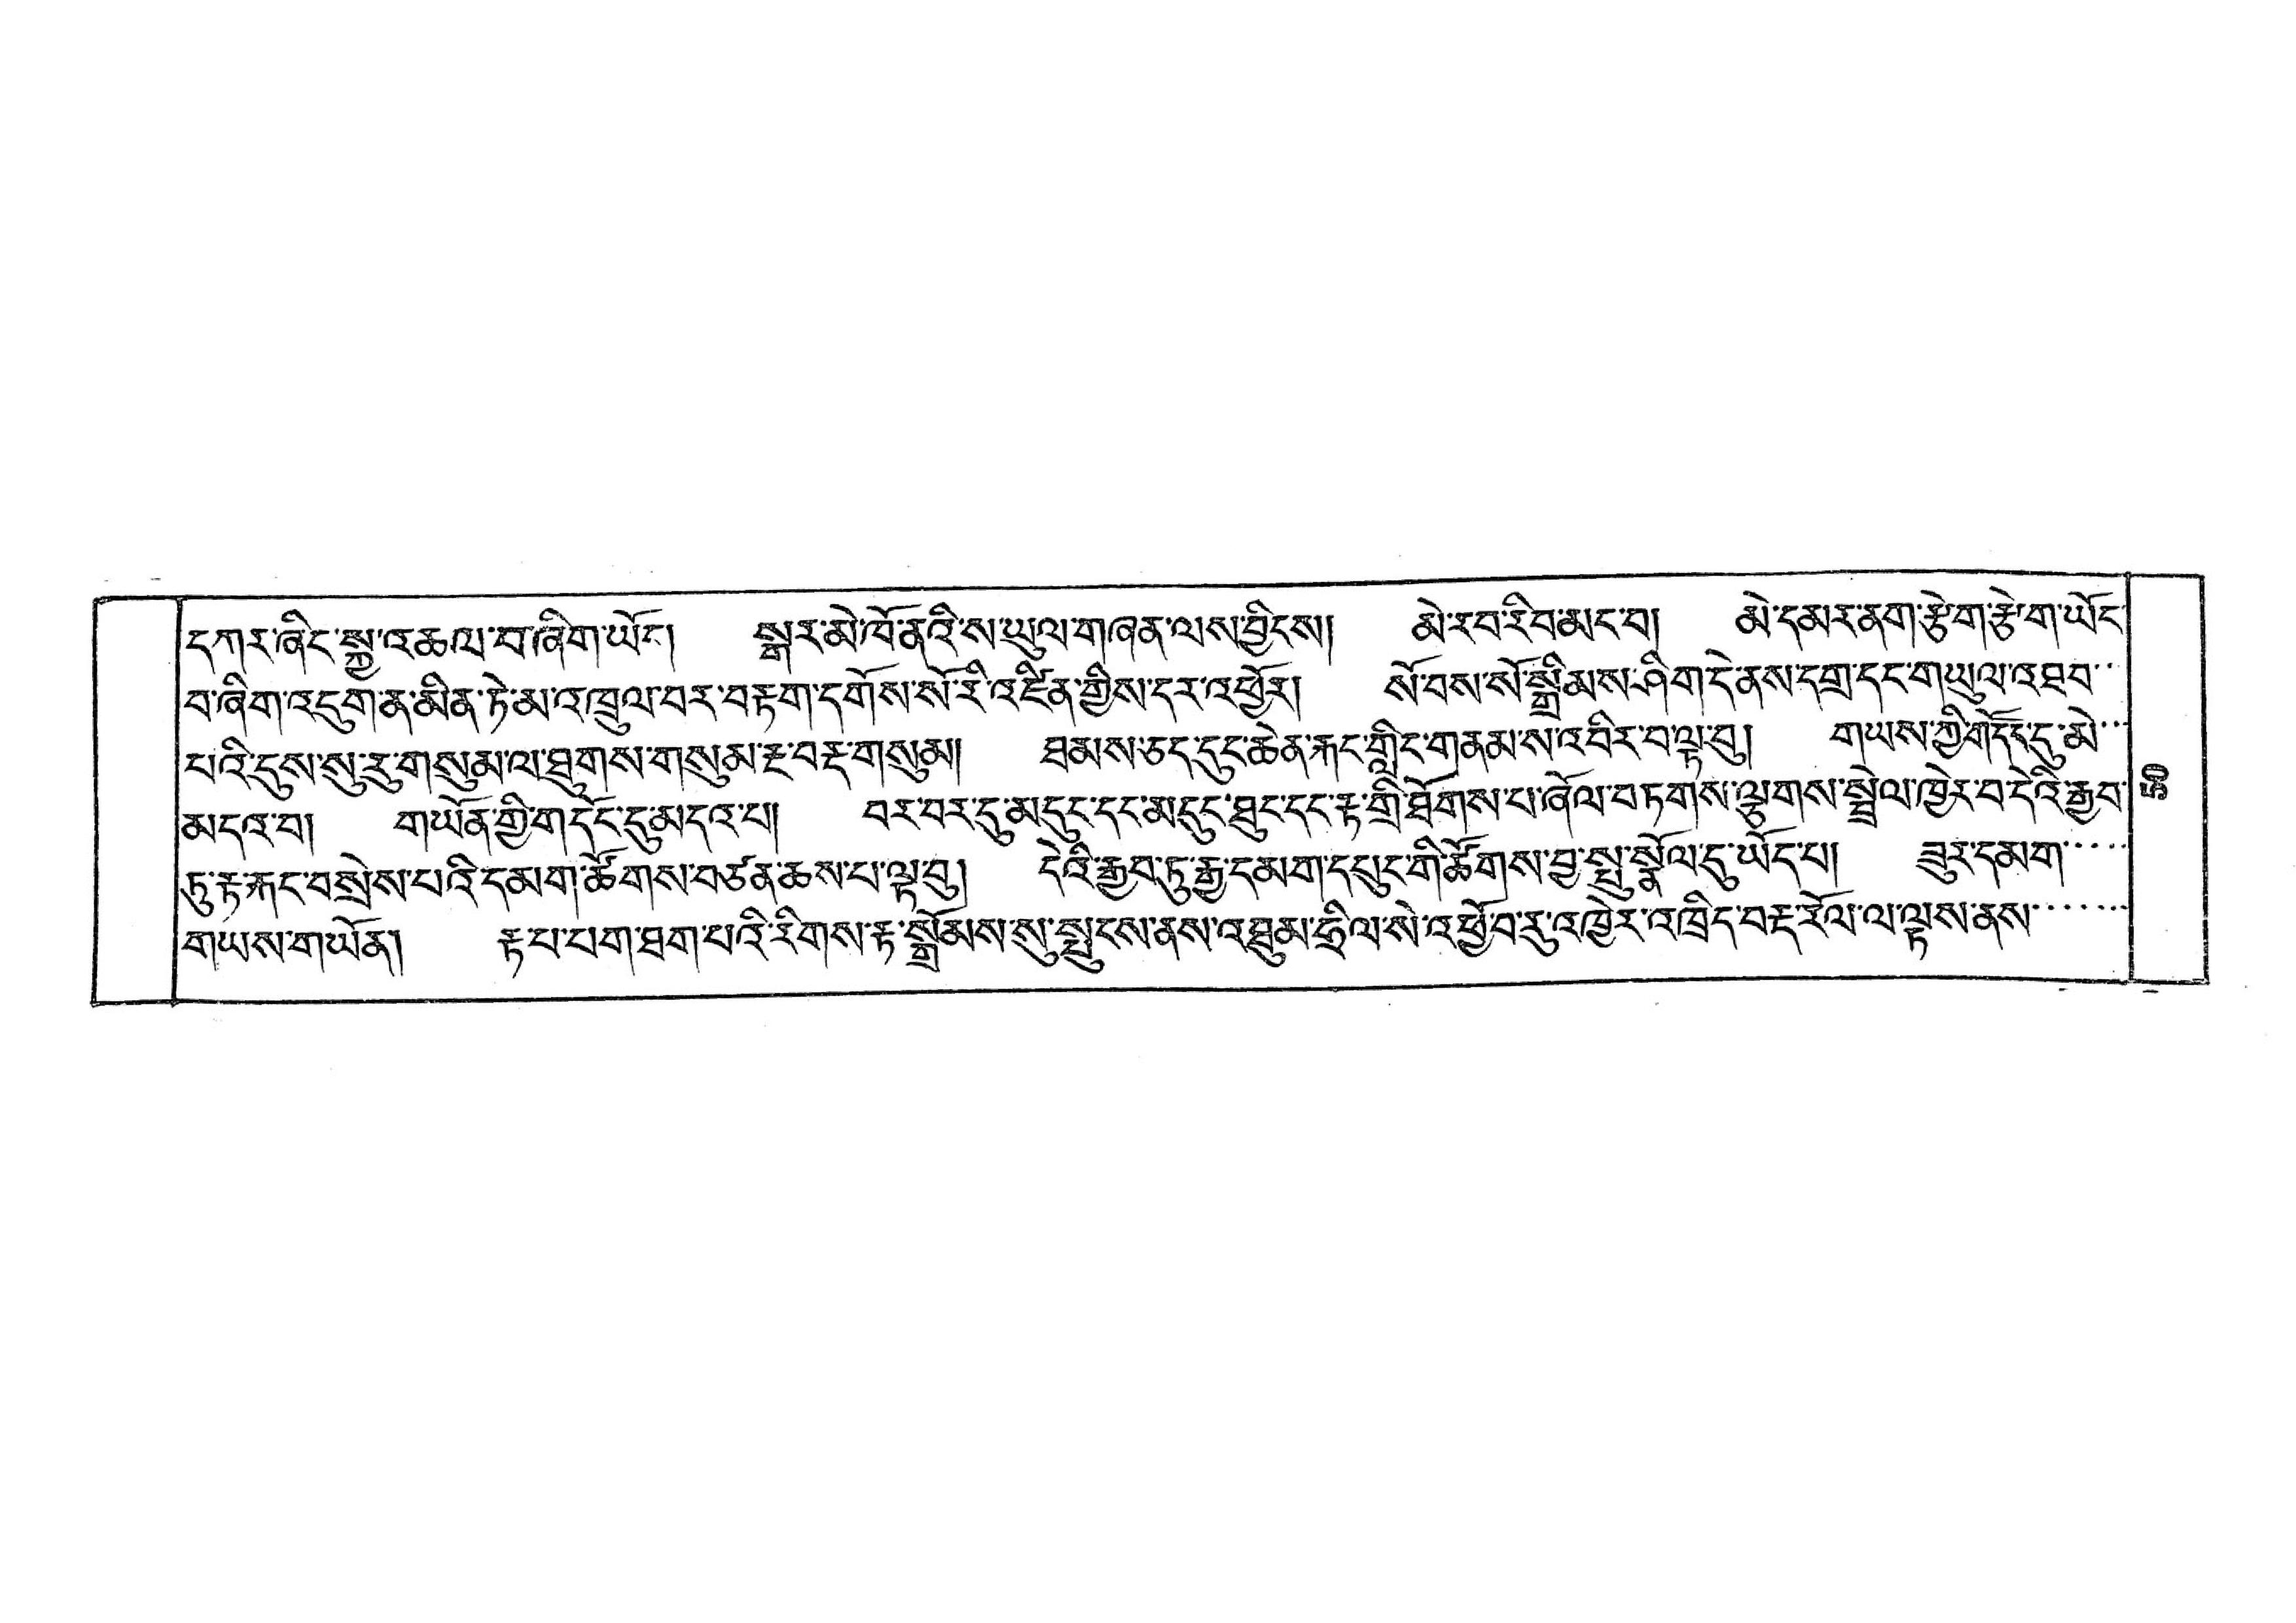དཀར་ཞིང་སྐྱུ་འཆལ་བ་ཞིག་ཡོད། སྒར་མེ་ཁོ་ནའི་ས་ཡུལ་གཞན་ལས་བྱིངས། མེ་རབ་རིབ་མང་བ། མེ་དམར་ནག་རྩེག་རྩེག་ཡོང་
བ་ཞིག་འདུག་ན་མིན་ཏེ་མ་འཁྲུལ་བར་བརྟག་དགོས་སོ་རི་འཛིན་གྱིས་དར་འཕྱོར། སེ་བས་སོ་སྒྲིམས་ཤིག་དེ་ནས་དགྲ་དང་གཡུལ་འཐབ་་་
པའི་དུས་སུ་རུ་གསུམ་ལ་ཐུགས་གསུམ་རྔ་བརྡ་གསུམ། ཐམས་ཅད་དུང་ཆེན་རྐང་གླིང་གནམ་ས་འབིར་བ་ལྟ་བུ། གཡས་ཀྱི་གདོང་དུ་མེ་་་
མདའ་བ། གཡོན་གྱི་གདོང་དུ་མདའ་པ། བར་བར་དུ་མདུང་དང་མདུང་ཐུང་དང་རྟ་གྲི་ཐོགས་པ་ཞོལ་བཏགས་ལྕགས་སྦྲེལ་ཁྱེར་བ་དེའི་རྒྱབ་
ཏུ་རྟ་རྐད་བསྲེས་པའི་དམག་ཚོགས་བཙན་ཆས་པ་ལྟ་བུ། དེའི་རྒྱབ་ཏུ་རྒྱ་དམག་དཔུང་གི་ཚོགས་བྱ་སྤུ་སྣོལ་དུ་ཡོད་པ། ཟུར་དམག་་་་་
གཡས་གཡོན། རྟ་པ་པག་ཐག་པའི་རིགས་རྟ་སྒྲོམས་སུ་སྤུངས་ནས་འཐུམ་ཧྲིལ་སེ་འཕྱོ་བ་རུ་འཁྱེར་འཁྲིད་བརྡ་རོལ་ལ་ལྟས་ནས་་་་་་་
